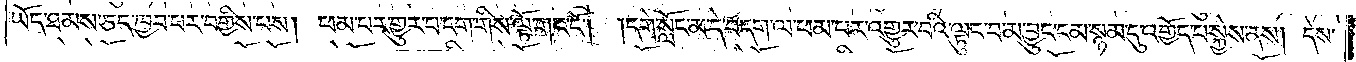ཡོད་ཐམས་ཅད་ཁྱབ་པར་བགྱིས་པས། ཕམ་པར་གྱུར་པ་དག་གིས་ལྟོ་གང་ངོ༌། །དགེ་སློང་མ་དེ་བདག་ལ་ཕམ་པར་འགྱུར་བའི་ལྟུང་བ་མ་བྱུང་ངམ་སྙམ་དུ་འགྱོད་པ་སྐྱེས་ནས། དེས་
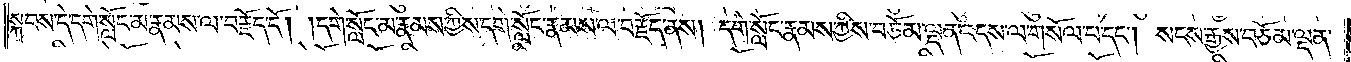སྐབས་དེ་དགེ་སློང་མ་རྣམས་ལ་བརྗོད་དོ། །དགེ་སློང་མ་རྣམས་ཀྱིས་དགེ་སློང་རྣམས་ལ་བརྗོད་ནས། དགེ་སློང་རྣམས་ཀྱིས་བཅོམ་ལྡན་འདས་ལ་གསོལ་པ་དང༌། སངས་རྒྱས་བཅོམ་ལྡན་
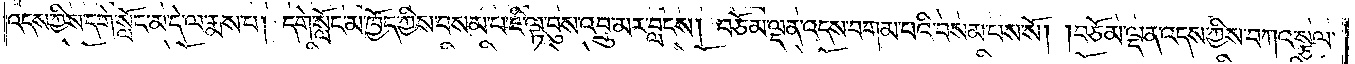འདས་ཀྱིས་དགེ་སློང་མ་དེ་ལ་རྨས་པ། དགེ་སློང་མ་ཁྱོད་ཀྱིས་བསམ་པ་ཇི་ལྟ་བུས་འབྲུ་མར་བླངས། བཅོམ་ལྡན་འདས་བགམ་པའི་བསམ་པས་སོ། །བཅོམ་ལྡན་འདས་ཀྱིས་བཀའ་སྩལ་
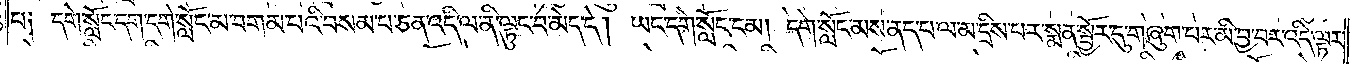པ༑ དགེ་སློང་དག་དགེ་སློང་མ་བགམ་པའི་བསམ་པ་ཅན་འདི་ལ་ནི་ལྟུང་བ་མེད་དེ། ཡང་དགེ་སློང་ངམ། དགེ་སློང་མས་ནད་པ་ལ་མ་དྲིས་པར་སྨན་སྦྱོར་དུ་གཞུག་པར་མི་བྱ་བར་འདི་ལྟར་
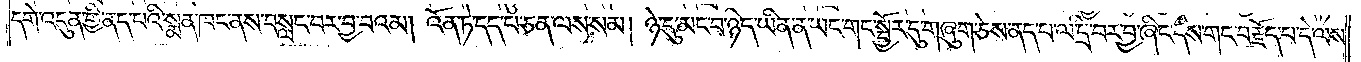དགེ་འདུན་གྱི་ནད་པའི་སྨན་ཁང་ནས་བསླང་བར་བྱ་བའམ། འོན་ཏེ་དད་པ་ཅན་ལས་སམ། ཉེ་དུ་མང་བ་ཉིད་ཡིན་ན་ཡང་གང་སྦྱོར་དུ་གཞུག་ཅེས་ནད་པ་ལ་དྲི་བར་བྱ་ཞིང་དེས་གང་བརྗོད་པ་དེ་ལས་
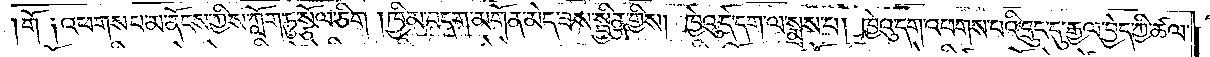གོ༑ འཕགས་པ་མ་ནོངས་ཀྱིས་ཀློག་ཏུ་སྩོལ་ཅིག །ཁྱིམ་བདག་མགོན་མེད་ཟས་སྦྱིན་གྱིས། ཁྱེའུ་དེ་དག་ལ་སྨྲས་པ། ཁྱེའུ་དག་འཕགས་པའི་དྲུང་དུ་རྒྱལ་བྱེད་ཀྱི་ཚལ་
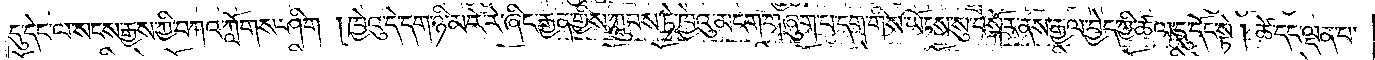དུ་དེང་ལ་སངས་རྒྱས་ཀྱི་བཀའ་ཀློགས་ཤིག །ཁྱེའུ་དེ་དག་ཉི་མ་རེ་རེ་ཞིང་རྒྱན་གྱིས་ཀླུབས་ཏེ་ཁྱེའུ་མངག་གཞུག་པ་དག་གིས་ཡོངས་སུ་བསྐོར་ནས་རྒྱལ་བྱེད་ཀྱི་ཚལ་དུ་དོང་སྟེ། ཚེ་དང་ལྡན་པ་
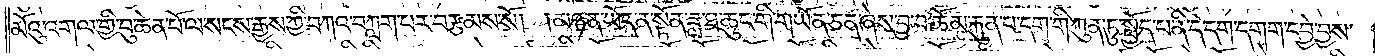མོའུ་འགལ་གྱི་བུ་ཆེན་པོ་ལ་སངས་རྒྱས་ཀྱི་བཀའ་བཀླག་པར་བརྩམས་སོ། །མཉན་ཡོད་ན་སྟོན་ཟླ་ཐ་ཆུང་གི་གཡོན་ཅན་ཞེས་བྱ་བ་ཆོམ་རྐུན་པ་དག་གི་ཀུན་ཏུ་སྤྱོད་པ་ནི་དེ་དག་དགག་དབྱེ་བྱས་
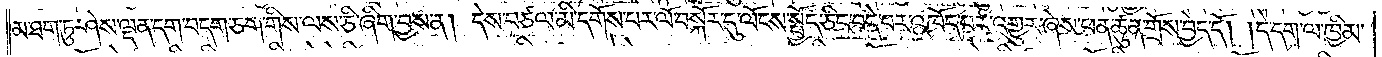མ་ཐག་ཏུ་ཤེས་ལྡན་དག་བདག་ཅག་གིས་ལས་ཅི་ཞིག་བྱས་ན། དེས་བཙལ་མི་དགོས་པར་ལོ་བསྐོར་དུ་ལོངས་སྤྱོད་ཅིང་བདེ་བར་འཁོད་པར་འགྱུར་ཞེས་ཕན་ཚུན་གྲོས་བྱེད་དོ། །དེ་དག་ལ་ཁྱིམ་
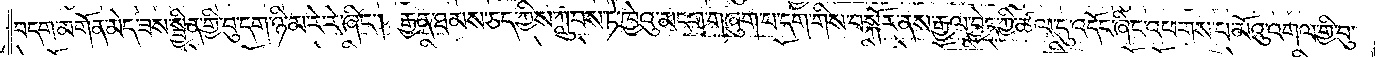བདག་མགོན་མེད་ཟས་སྦྱིན་གྱི་བུ་དག་ཉི་མ་རེ་རེ་ཞིང༌། རྒྱན་ཐམས་ཅད་ཀྱིས་ཀླུབས་ཏེ་ཁྱེའུ་མངག་གཞུག་པ་དག་གིས་བསྐོར་ནས་རྒྱལ་བྱེད་ཀྱི་ཚལ་དུ་འདོང་ཞིང་འཕགས་པ་མོའུ་འགལ་གྱི་བུ་
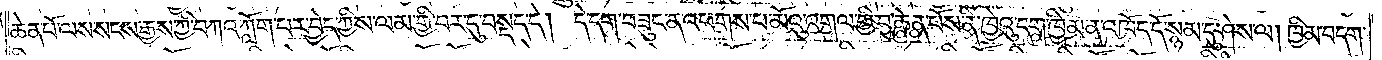ཆེན་པོ་ལས་སངས་རྒྱས་ཀྱི་བཀའ་ཀློག་པར་བྱེད་ཀྱིས་ལམ་གྱི་བར་དུ་བསྡད་དེ། དེ་དག་བཟུང་ན་འཕགས་པ་མོའུ་འགལ་གྱི་བུ་ཆེན་པོས་ནི་ཁྱེའུ་དག་ཁྱིམ་ན་འཁོད་དོ་སྙམ་དུ་ཤེས་ལ། ཁྱིམ་བདག་
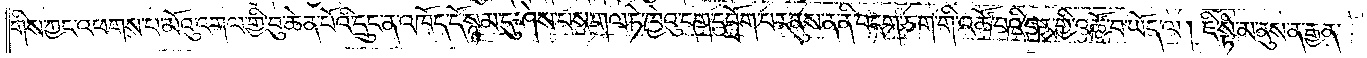གིས་ཀྱང་འཕགས་པ་མོའུ་འགལ་གྱི་བུ་ཆེན་པོའི་དྲུང་ན་འཁོད་དོ་སྙམ་དུ་ཤེས་པས་གལ་ཏེ་ཁྱེའུ་དག་དབྲོག་པར་ནུས་ན་ནི་བདག་ཅག་གི་འཚོ་བའི་བར་གྱི་འཚོ་བ་ཡོད་ལ། ཇི་སྟེ་མ་ནུས་ན་རྒྱན་
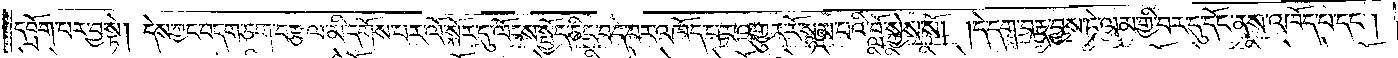དབྲོག་པར་བྱ་སྟེ། དེས་ཀྱང་བདག་ཅག་བརྩལ་མི་དགོས་པར་ལོ་སྐོར་དུ་ལོངས་སྤྱོད་ཅིང་བདེ་བར་འཁོད་པར་འགྱུར་རོ་སྙམ་པའི་བློ་སྐྱེས་སོ། །དེ་དག་བརྡ་བྱས་ཏེ་ལམ་གྱི་བར་དུ་དོང་ནས་འཁོད་པ་དང༌།
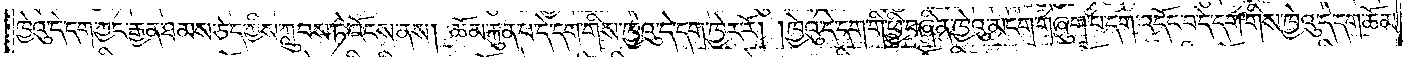ཁྱེའུ་དེ་དག་ཀྱང་རྒྱན་ཐམས་ཅད་ཀྱིས་ཀླུབས་ཏེ་འོངས་ནས། ཆོམ་རྐུན་པ་དེ་དག་གིས་ཁྱེའུ་དེ་དག་ཁྱེར་རོ། །ཁྱེའུ་དེ་དག་གི་ཕྱི་བཞིན་ཁྱེའུ་མངག་གཞུག་པ་དག་འདོང་བ་དེ་དག་གིས་ཁྱེའུ་དེ་དག་ཆོམ་
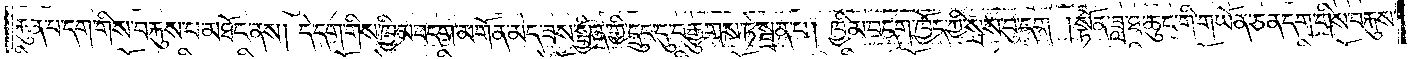རྐུན་པ་དག་གིས་བརྐུས་པ་མཐོང་ནས། དེ་དག་གིས་ཁྱིམ་བདག་མགོན་མེད་ཟས་སྦྱིན་གྱི་དྲུང་དུ་བརྒྱུགས་ཏེ་སྦྲན་པ། ཁྱིམ་བདག་ཁྱོད་ཀྱི་སྲས་བུ་དག །སྟོན་ཟླ་ཐ་ཆུང་གི་གཡོན་ཅན་དག་གིས་བརྐུས་
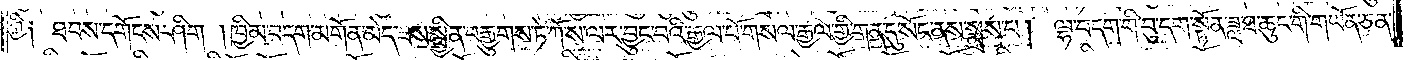ཀྱི༑ ཐབས་དགོངས་ཤིག །ཁྱིམ་བདག་མགོན་མེད་ཟས་སྦྱིན་བརྒྱུགས་ཏེ་ཀོ་ས་ལར་བྱུང་བའི་རྒྱལ་པོ་གསལ་རྒྱལ་གྱི་གན་དུ་སོང་ནས་སྨྲས་པ། ལྷ་བདག་གི་བུ་དག་སྟོན་ཟླ་ཐ་ཆུང་གི་གཡོན་ཅན་
